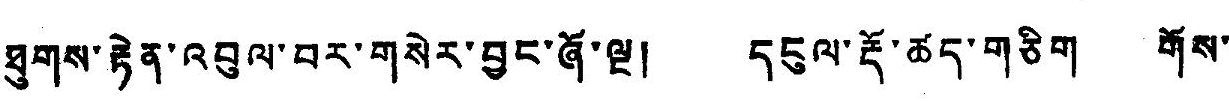ཐུགས་རྟེན་འབུལ་བར་གསེར་བྱང་ཞོ་ལྔ། དངུལ་རྡོ་ཚད་གཅིག གོས་
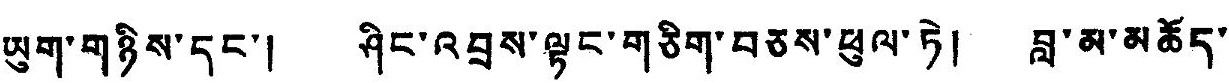ཡུག་གཉིས་དང་། ཤིང་འབྲས་ལྟང་གཅིག་བཅས་ཕུལ་ཏེ། བླ་མ་མཆོད་
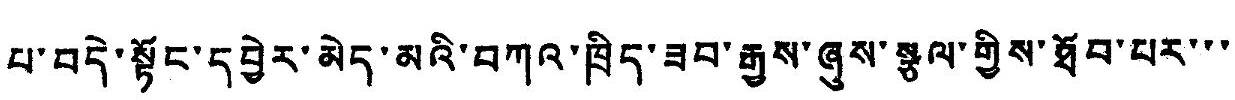པ་བདེ་སྟོང་དབྱེར་མེད་མའི་བཀའ་ཁྲིད་ཟབ་རྒྱས་ཞུས་སྩལ་གྱིས་ཐོབ་པར་་་
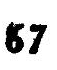67
